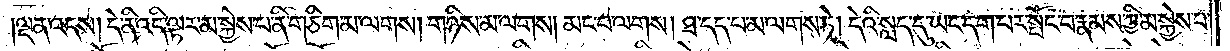ལྡན་འདས། དེ་ནི་འདི་ལྟར་མ་སྐྱེས་པ་ནི་གཅིག་མ་ལགས། གཉིས་མ་ལགས། མང་བ་མ་ལགས། ཐ་དད་པ་མ་ལགས་ཏེ། དེའི་སླད་དུ་ཡང་དག་པར་སྤོང་བ་རྣམས་ཀྱི་མ་སྐྱེས་པ་
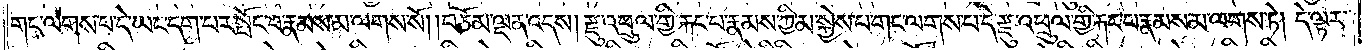གང་ལགས་པ་དེ་ཡང་དག་པར་སྤོང་བ་རྣམས་མ་ལགས་སོ། །བཅོམ་ལྡན་འདས། རྫུ་འཕྲུལ་གྱི་རྐང་པ་རྣམས་ཀྱི་མ་སྐྱེས་པ་གང་ལགས་པ་དེ་རྫུ་འཕྲུལ་གྱི་རྐང་པ་རྣམས་མ་ལགས་ཏེ། དེ་ལྟར་
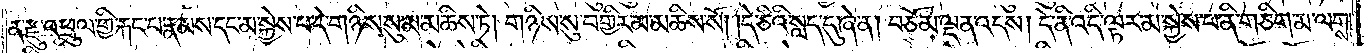ན་རྫུ་འཕྲུལ་གྱི་རྐང་པ་རྣམས་དང་མ་སྐྱེས་པ་དེ་གཉིས་སུ་མ་མཆིས་ཏེ། གཉིས་སུ་བགྱིར་མ་མཆིས་སོ། །དེ་ཅིའི་སླད་དུ་ཞེ་ན། བཅོམ་ལྡན་འདས། དེ་ནི་འདི་ལྟར་མ་སྐྱེས་པ་ནི་གཅིག་མ་ལགས་
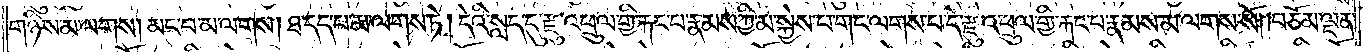གཉིས་མ་ལགས། མང་བ་མ་ལགས། ཐ་དད་པ་མ་ལགས་ཏེ། དེའི་སླད་དུ་རྫུ་འཕྲུལ་གྱི་རྐང་པ་རྣམས་ཀྱི་མ་སྐྱེས་པ་གང་ལགས་པ་དེ་རྫུ་འཕྲུལ་གྱི་རྐང་པ་རྣམས་མ་ལགས་སོ། །བཅོམ་ལྡན་
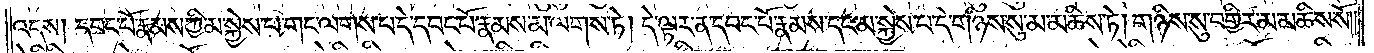འདས། དབང་པོ་རྣམས་ཀྱི་མ་སྐྱེས་པ་གང་ལགས་པ་དེ་དབང་པོ་རྣམས་མ་ལགས་ཏེ། དེ་ལྟར་ན་དབང་པོ་རྣམས་དང་མ་སྐྱེས་པ་དེ་གཉིས་སུ་མ་མཆིས་ཏེ། གཉིས་སུ་བགྱིར་མ་མཆིས་སོ། །
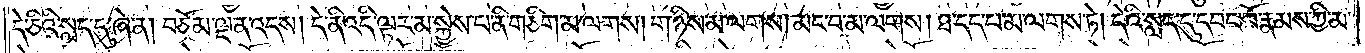དེ་ཅིའི་སླད་དུ་ཞེ་ན། བཅོམ་ལྡན་འདས། དེ་ནི་འདི་ལྟར་མ་སྐྱེས་པ་ནི་གཅིག་མ་ལགས། གཉིས་མ་ལགས། མང་བ་མ་ལགས། ཐ་དད་པ་མ་ལགས་ཏེ། དེའི་སླད་དུ་དབང་པོ་རྣམས་ཀྱི་མ་
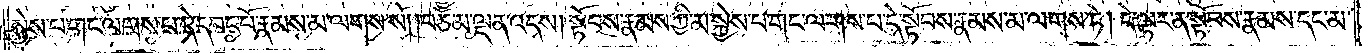སྐྱེས་པ་གང་ལགས་པ་དེ་དབང་པོ་རྣམས་མ་ལགས་སོ། །བཅོམ་ལྡན་འདས། སྟོབས་རྣམས་ཀྱི་མ་སྐྱེས་པ་གང་ལགས་པ་དེ་སྟོབས་རྣམས་མ་ལགས་ཏེ། དེ་ལྟར་ན་སྟོབས་རྣམས་དང་མ་
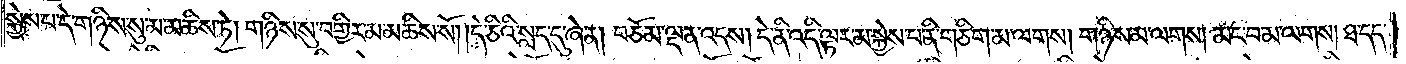སྐྱེས་པ་དེ་གཉིས་སུ་མ་མཆིས་ཏེ། གཉིས་སུ་བགྱིར་མ་མཆིས་སོ། །དེ་ཅིའི་སླད་དུ་ཞེ་ན། བཅོམ་ལྡན་འདས་དེ་ནི་འདི་ལྟར་མ་སྐྱེས་པ་ནི་གཅིག་མ་ལགས། གཉིས་མ་ལགས། མང་བ་མ་ལགས། ཐ་དད་
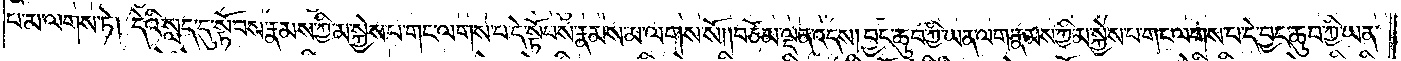པ་མ་ལགས་ཏེ། དེའི་སླད་དུ་སྟོབས་རྣམས་ཀྱི་མ་སྐྱེས་པ་གང་ལགས་པ་དེ་སྟོབས་རྣམས་མ་ལགས་སོ། །བཅོམ་ལྡན་འདས། བྱང་ཆུབ་ཀྱི་ཡན་ལག་རྣམས་ཀྱི་མ་སྐྱེས་པ་གང་ལགས་པ་དེ་བྱང་ཆུབ་ཀྱི་ཡན་
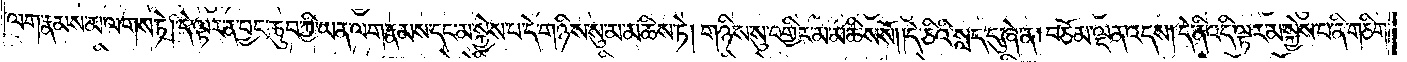ལག་རྣམས་མ་ལགས་ཏེ། དེ་ལྟར་ན་བྱང་ཆུབ་ཀྱི་ཡན་ལག་རྣམས་དང་མ་སྐྱེས་པ་དེ་གཉིས་སུ་མ་མཆིས་ཏེ། གཉིས་སུ་བགྱིར་མ་མཆིས་སོ། །དེ་ཅིའི་སླད་དུ་ཞེ་ན། བཅོམ་ལྡན་འདས། དེ་ནི་འདི་ལྟར་མ་སྐྱེས་པ་ནི་གཅིག་
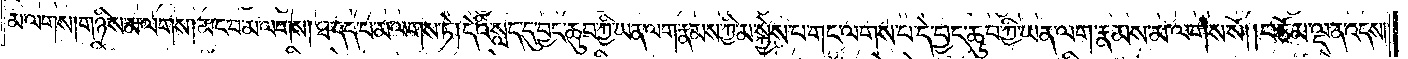མ་ལགས། གཉིས་མ་ལགས། མང་བ་མ་ལགས། ཐ་དད་པ་མ་ལགས་ཏེ། དེའི་སླད་དུ་བྱང་ཆུབ་ཀྱི་ཡན་ལག་རྣམས་ཀྱི་མ་སྐྱེས་པ་གང་ལགས་པ་དེ་བྱང་ཆུབ་ཀྱི་ཡན་ལག་རྣམས་མ་ལགས་སོ། །བཅོམ་ལྡན་འདས་
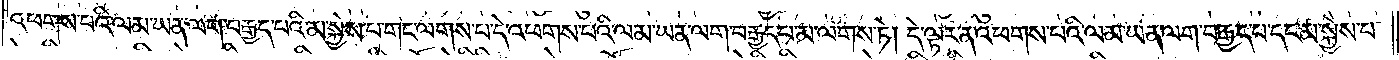འཕགས་པའི་ལམ་ཡན་ལག་བརྒྱད་པའི་མ་སྐྱེས་པ་གང་ལགས་པ་དེ་འཕགས་པའི་ལམ་ཡན་ལག་བརྒྱད་པ་མ་ལགས་ཏེ། དེ་ལྟར་ན་འཕགས་པའི་ལམ་ཡན་ལག་བརྒྱད་པ་དང་མ་སྐྱེས་པ་
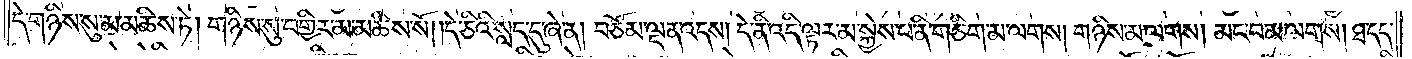དེ་གཉིས་སུ་མ་མཆིས་ཏེ། གཉིས་སུ་བགྱིར་མ་མཆིས་སོ། །དེ་ཅིའི་སླད་དུ་ཞེ་ན། བཅོམ་ལྡན་འདས། དེ་ནི་འདི་ལྟར་མ་སྐྱེས་པ་ནི་གཅིག་མ་ལགས། གཉིས་མ་ལགས། མང་བ་མ་ལགས། ཐ་དད་
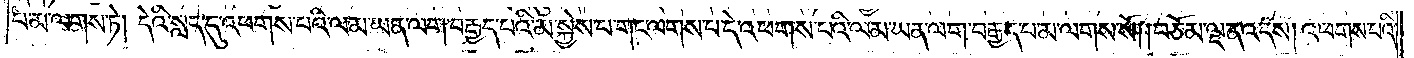པ་མ་ལགས་ཏ། དེའི་སླད་དུ་འཕགས་པའི་ལམ་ཡན་ལག་བརྒྱད་པའི་མ་སྐྱེས་པ་གང་ལགས་པ་དེ་འཕགས་པའི་ལམ་ཡན་ལག་བརྒྱད་པ་མ་ལགས་སོ། །བཅོམ་ལྡན་འདས། འཕགས་པའི་
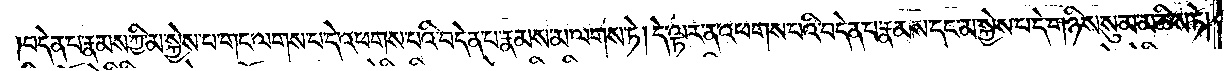བདེན་པ་རྣམས་ཀྱི་མ་སྐྱེས་པ་གང་ལགས་པ་དེ་འཕགས་པའི་བདེན་པ་རྣམས་མ་ལགས་ཏེ། དེ་ལྟར་ན་འཕགས་པའི་བདེན་པ་རྣམས་དང་མ་སྐྱེས་པ་དེ་གཉིས་སུ་མ་མཆིས་ཏེ།
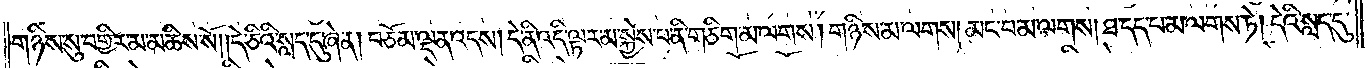གཉིས་སུ་བགྱིར་མ་མཆིས་སོ། །དེ་ཅིའི་སླད་དུ་ཞེ་ན། བཅོམ་ལྡན་འདས། དེ་ནི་འདི་ལྟར་མ་སྐྱེས་པ་ནི་གཅིག་མ་ལགས། གཉིས་མ་ལགས། མང་བ་མ་ལགས། ཐ་དད་པ་མ་ལགས་ཏེ། དེའི་སླད་དུ་
